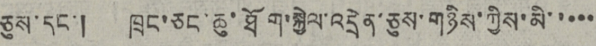ཅུས་དང་། ཁྲང་ཅང་ཆུ་ཐོག་སྐྱེལ་འདྲེན་ཅུས་གཉིས་ཀྱིས་མི་་་་་
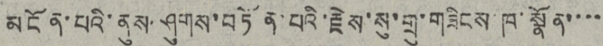མངོན་པའི་ནུས་ཤུགས་བཏོན་པའི་རྗེས་སུ་གྲུ་གཟིངས་ཁ་སྣོན་་་་
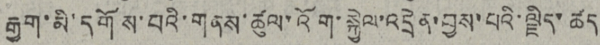རྒྱག་མི་དགོས་པའི་གནས་ཚུལ་འོག་སྐྱེལ་འདྲེན་བྱས་པའི་ལྗིད་ཚད
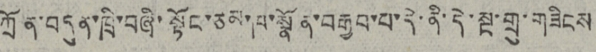ཀྲོན་བདུན་ཁྲི་བཞི་སྟོང་ཙམ་ཁ་སྣོན་བརྒྱབ་པ་དེ་ནི་དེ་སྔ་གྲུ་གཟིངས
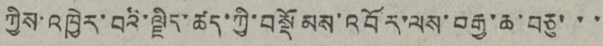ཀྱིས་འཁྱེར་བའི་ལྗིད་ཚད་ཀྱི་བསྡོམས་འབོར་ལས་བརྒྱ་ཆ་བཅུ་་་
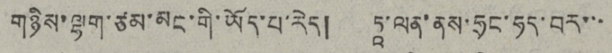གཉིས་ལྷག་ཙམ་མང་གི་ཡོད་པ་རེད།  ཏཱ་ལན་ནས་ཧྲང་ཧད་བར་་་
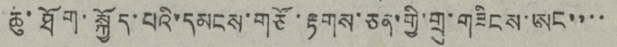ཆུ་ཐོག་སྐྱོད་པའི་དམངས་གཙོ་རྟགས་ཅན་གྱི་གྲུ་གཟིངས་ཨང་་་་
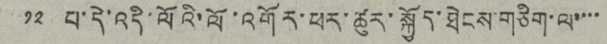༡༢ པ་དེ་འདི་ལོའི་ལོ་འགོར་ཕར་ཚུར་སྐྱོད་ཐེངས་གཅིག་ལ་་་་
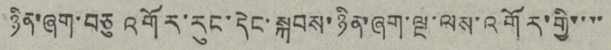ཉིན་ཞག་བཅུ་འགོར་རུང་དེང་སྐབས་ཉིན་ཞག་ལྔ་ལས་འགོར་གྱི་་་་
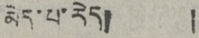མེད་པ་རེད།  །
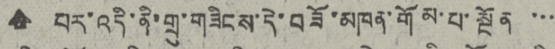🠹པར་འདི་ནི་གྲུ་གཟིངས་དེ་བཟོ་མཁན་གོམ་པ་སྔོན་་་
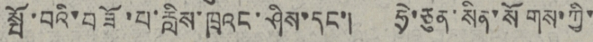སྤོ་བའི་བཟོ་པ་རླིས་ཁྲའང་ཤིས་དང་།  ཧྲེ་ཅུན་སིན་སོགས་ཀྱི་
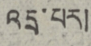འདྲ་པར།
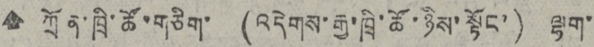🠹 ཀྲོན་ཁྲི་ཚོ་གཅིག་ (འདེགས་རྒྱ་ཁྲི་ཚོ་ཉིས་སྟོང་) ལྷག་
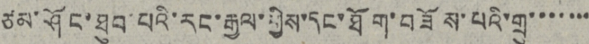ཙམ་ཤོང་ཐུབ་པའི་རང་རྒྱལ་གྱིས་དང་ཐོག་བཟོས་པའི་གྲ་་་་་་་
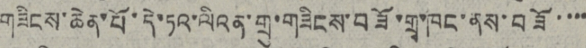གཟིངས་ཆེན་པོ་དེ་ཏའ་ལིའན་གྲུ་གཟིངས་བཟོ་གྲྭ་ཁང་ནས་བཟོ་་་་
